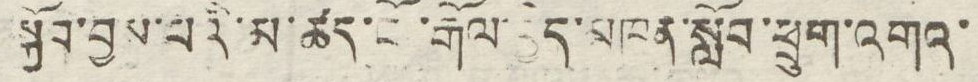སྐྱོབ་བྱས་པའི་མ་ཚད་ངོ་རྒོལ་བྱེད་མཁན་སློབ་ཕྲུག་འགའ་
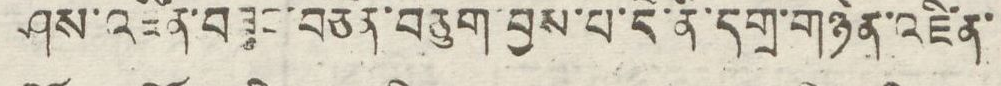ཤས་འཛིན་བཟུང་བཙོན་བྱས་པ་དེ་ནི་དགྲ་གཉེན་འཛིན་
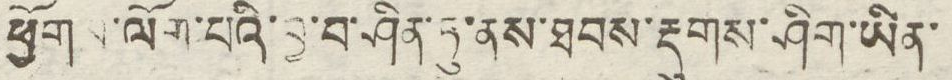ཕྱོགས་ལོག་པའི་བྱ་བ་ཤིན་ཏུ་བས་ཐབས་རྡུགས་ཤིག་ཡིན་
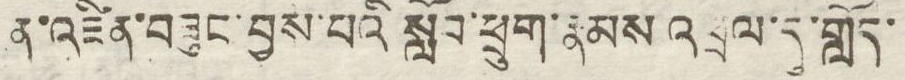ན་འཛིན་བཟུང་བྱས་པའི སློབ་ཕྲུག་རྣམས འཕྲལ་དུ་གློད་
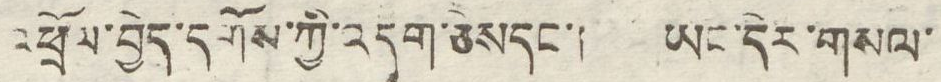འཕྲོལ་བྱེད་དགོས་ཀྱི་འདུག་ཅེསདང་། ཡང་དེར་གསལ་
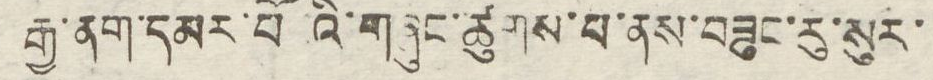རྒྱ་ནག་དམར་པོ འི་གཞུང་ཚུགས་པ་ནས་བཟུང་རུ་སུར་
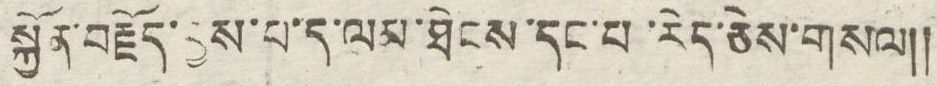སྐྱོན་བརྗོད་བྱས་པ་ད་ལམ་ཐེངས་དང་པ་རེད་ཅེས་གསལ།།
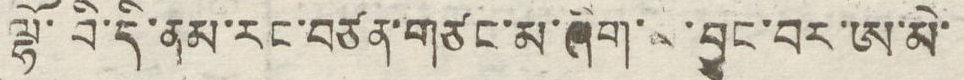ལྷོ་བི་དི་ནམ་རང་བཙན་གཙང་མ་ཞིག་མ་བྱུང་བར་ཨ་མེ་
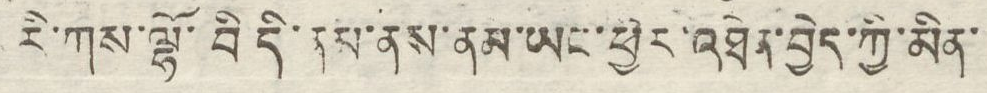རི་ཀས་ལྷོ་བི དི་ནམ་ནས་ནམ་ཡང་ཕྱིར་འཐེན་བྱེད་ཀྱི་མིན་
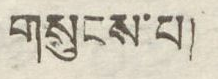གསུངས་པ།
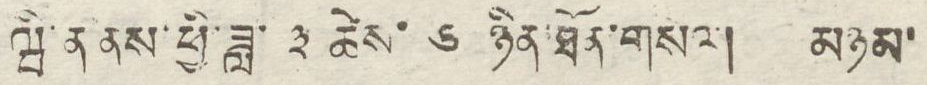ཝི་ན ནས་ཕྱི་ཟླ་ ༣ ཚེས་ ༦ ཉིན་ཐོན་གསལ། མཉམ་
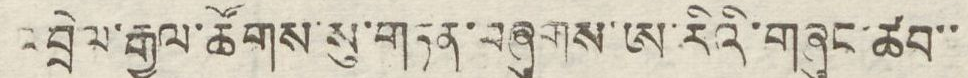འབྲེལ་རྒྱལ་ཚོགས་སུ་གཏན་བཞུགས་ཨ་རིའི་གཞུང་ཚབ་་
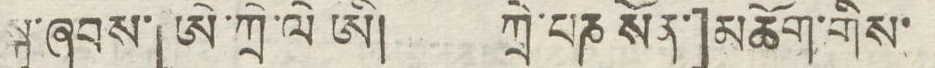སྐུ་ཞབས་[ཨེ་ཀྲེ་ལེ ཨི། ཀྲེ་པཎ སོན་]མཆོག་གིས་
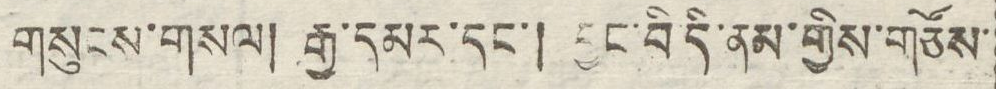གསུངས་གསལ། རྒྱ་དམར་དང་། བྱང་བི་དི་ནམ་གྱིས་གཙོས་
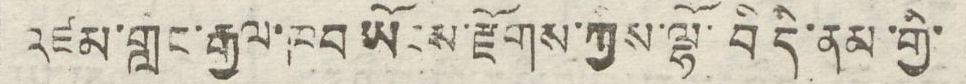འཛམ་གླིང་རྒྱལ་ཁབ ཡོངས་རྫོགས་ཀྱིས་ལྷོ་བི་དི་ནམ་གྱི་
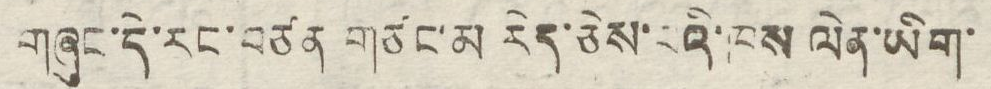གཞུང་དེ་རང་བཙན བཙང་མ རེད་ཅེས་པའི་ཁས ལེན་ཡིག་
